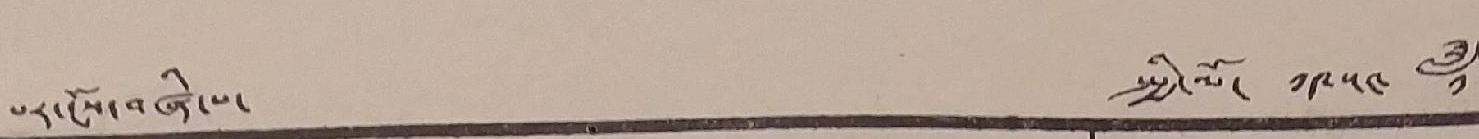པར་ངོས་བཞི་པ་ སྤྱི་ལོ་ ༡༩༥༤ ཟླ་
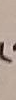༡
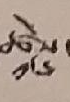ཚེས་
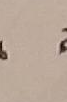༡༢
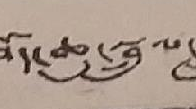བོད་ཆུ་སྦྲུལ་ཟླ་
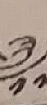༡༢
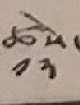ཚེས་
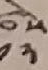༡༢
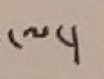ལ།
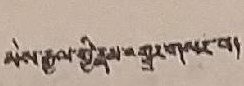མེས་རྒྱལ་གྱི་རྣམ་འགྱུར་གསར་པ།
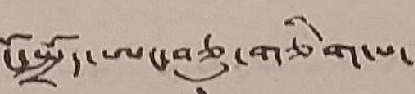ངོ་སྤྲོད་ཨང་བཅུ་གཅིག་པ་
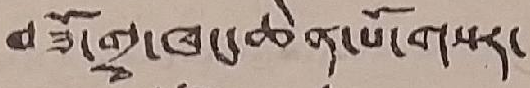བཟོ་གྲྭ་ཁང་ཆེན་པོ་གསར་
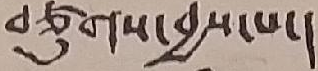བཙུགས་བྱས་པ་།
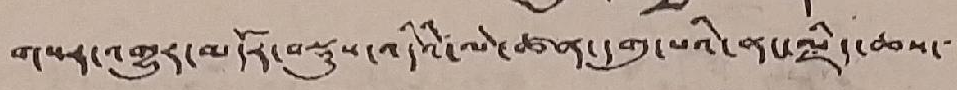གསར་འགྱུར་མདོར་བསྡུས་འདིའི་ལེ་ཚན་དགུ་པའི་ནང་ལྗིད་ཆས་་་
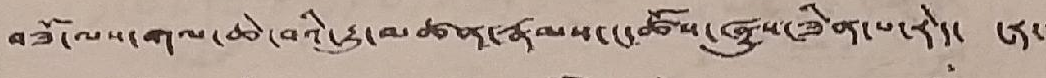བཟོ་ལས་གལ་ཆེ་བའི་རྒྱུ་མཚན་རྣམས་ང་ཚོས་ཞུས་ཟིན་པ་རེད་ ངར་་
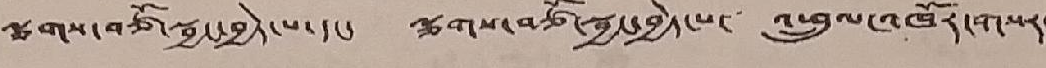ལྕགས་བཙོ་སྦྱང་བྱེད་པ་དང་ ལྕགས་བཙོ་སྦྱང་བྱེད་པ་ འཕྲུལ་འཁོར་གསར་
